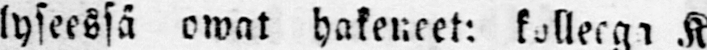lyseessä owat hakeneet: kolleega K.
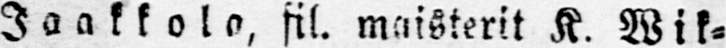Jaakkola, fil. maisterit K. Wik-
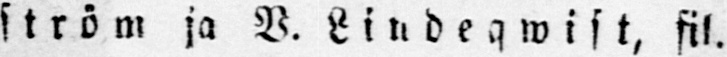ström ja V. Lindeqwist, fil
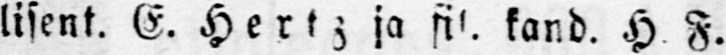lisent. E. Hertz ja fil. kand. H F.
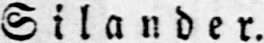Silander.
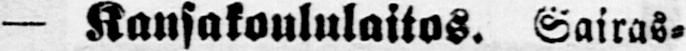— Kansakoululaitos. Sairas-
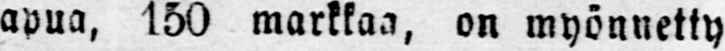apua, 150 markkaa, on myönnetty
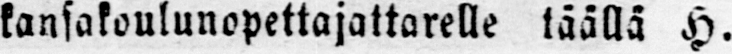kansakoulunopettajattarelle täällä H.
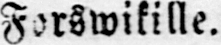Forswikille.
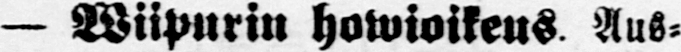— Wiipurin howioikeus Aus-
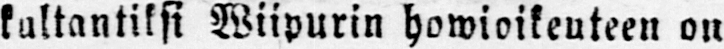kultantiksi Wiipurin howioikeuteen on
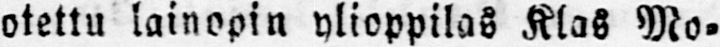otettu lainopin ylioppilas Klas Mo-
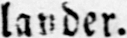lander.
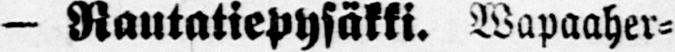— Rautatiepysäkki. Wapaaher-
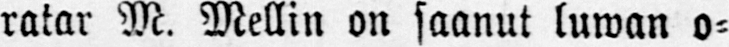ratar M. Mellin on saanut luwan o-
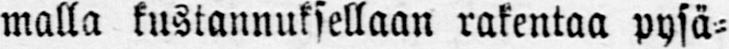malla kustannuksellaan rakentaa pysä-
